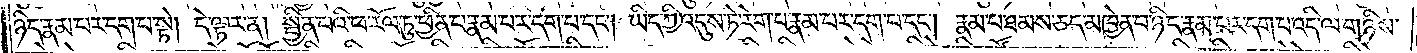ཉིད་རྣམ་པར་དག་པ་སྟེ། དེ་ལྟར་ན། སྦྱིན་པའི་ཕ་རོལ་ཏུ་ཕྱིན་པ་རྣམ་པར་དག་པ་དང༌། ཡིད་ཀྱི་འདུས་ཏེ་རེག་པ་རྣམ་པར་དག་པ་དང༌། རྣམ་པ་ཐམས་ཅད་མཁྱེན་པ་ཉིད་རྣམ་པར་དག་པ་འདི་ལ་གཉིས་
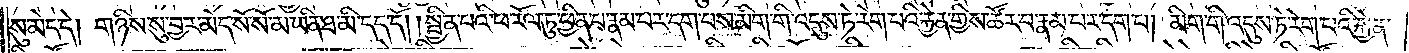སུ་མེད་དེ། གཉིས་སུ་བྱར་མེད་སོ་སོ་མ་ཡིན་ཐ་མི་དད་དོ། །སྦྱིན་པའི་ཕ་རོལ་ཏུ་ཕྱིན་པ་རྣམ་པར་དག་པས་མིག་གི་འདུས་ཏེ་རེག་པའི་རྐྱེན་གྱིས་ཚོར་བ་རྣམ་པར་དག་པ། མིག་གི་འདུས་ཏེ་རེག་པའི་རྐྱེན་
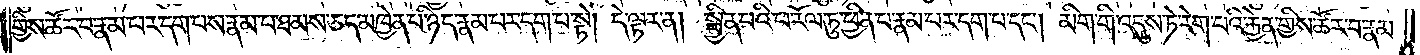གྱིས་ཚོར་བ་རྣམ་པར་དག་པས་རྣམ་པ་ཐམས་ཅད་མཁྱེན་པ་ཉིད་རྣམ་པར་དག་པ་སྟེ། དེ་ལྟར་ན། སྦྱིན་པའི་ཕ་རོལ་ཏུ་ཕྱིན་པ་རྣམ་པར་དག་པ་དང༌། མིག་འདུས་ཏེ་རེག་པའི་རྐྱེན་གྱིས་ཚོར་བ་རྣམ་
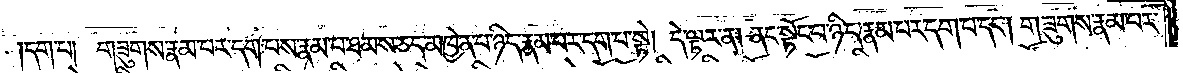དག་པ། གཟུགས་རྣམ་པར་དག་པས་རྣམ་པ་ཐམས་ཅད་མཁྱེན་པ་ཉིད་རྣམ་པར་དག་པ་སྟེ། དེ་ལྟར་ན། ནང་སྟོང་པ་ཉིད་རྣམ་པར་དག་པ་དང༌། གཟུགས་རྣམ་པར་
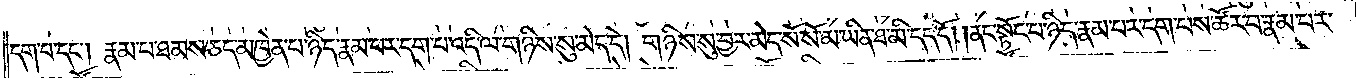དག་པ་དང༌། རྣམ་པ་ཐམས་ཅད་མཁྱེན་པ་ཉིད་རྣམ་པར་དག་པ་འདི་ལ་གཉིས་སུ་མེད་དེ། གཉིས་སུ་བྱར་མེད་སོ་སོ་མ་ཡིན་ཐ་མི་དད་དོ། །ནང་སྟོང་པ་ཉིད་རྣམ་པར་དག་པས་ཚོར་བ་རྣམ་པར་
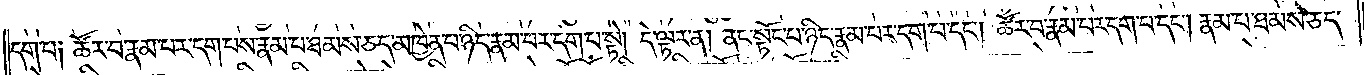དག་པ༑ ཚོར་བ་རྣམ་པར་དག་པས་རྣམ་པ་ཐམས་ཅད་མཁྱེན་པ་ཉིད་རྣམ་པར་དག་པ་སྟེ། དེ་ལྟར་ན། ནང་སྟོང་པ་ཉིད་རྣམ་པར་དག་པ་དང༌། ཚོར་བ་རྣམ་པར་དག་པ་དང༌། རྣམ་པ་ཐམས་ཅད་
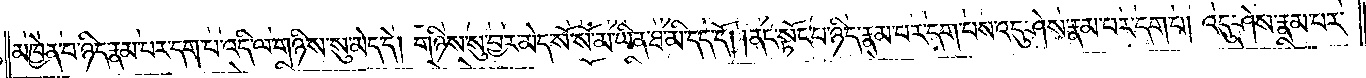མཁྱེན་པ་ཉིད་རྣམ་པར་དག་པ་འདི་ལ་གཉིས་སུ་མེད་དེ། གཉིས་སུ་བྱར་མེད་སོ་སོ་མ་ཡིན་ཐ་མི་དད་དོ། །ནང་སྟོང་པ་ཉིད་རྣམ་པར་དག་པས་འདུ་ཤེས་རྣམ་པར་དག་པ། འདུ་ཤེས་རྣམ་པར་
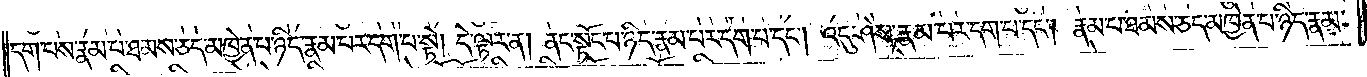དག་པས་རྣམ་པ་ཐམས་ཅད་མཁྱེན་པ་ཉིད་རྣམ་པར་དག་པ་སྟེ། དེ་ལྟར་ན། ནང་སྟོང་པ་ཉིད་རྣམ་པར་དག་པ་དང༌། འདུ་ཤེས་རྣམ་པར་དག་པ་དང༌། རྣམ་པ་ཐམས་ཅད་མཁྱེན་པ་ཉིད་རྣམ་
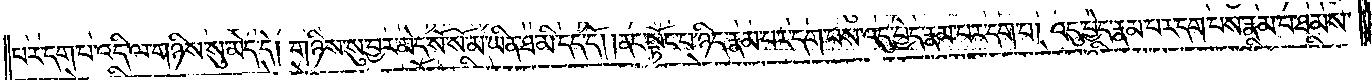པར་དག་པ་འདི་ལ་གཉིས་སུ་མེད་དེ། གཉིས་སུ་བྱར་མེད་སོ་སོ་མ་ཡིན་ཐ་མི་དད་དོ། །ནང་སྟོང་པ་ཉིད་རྣམ་པར་དག་པས་འདུ་བྱེད་རྣམ་པར་དག་པ། འདུ་བྱེད་རྣམ་པར་དག་པས་རྣམ་པ་ཐམས་
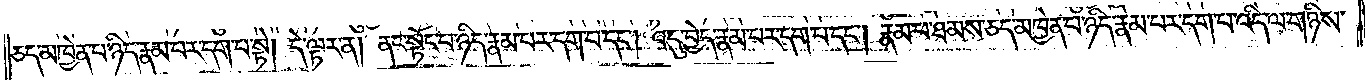ཅད་མཁྱེན་པ་ཉིད་རྣམ་པར་དག་པ་སྟེ། དེ་ལྟར་ན། ནང་སྟོང་པ་ཉིད་རྣམ་པར་དག་པ་དང༌། འདུ་བྱེད་རྣམ་པར་དག་པ་དང༌། རྣམ་པ་ཐམས་ཅད་མཁྱེན་པ་ཉིད་རྣམ་པར་དག་པ་འདི་ལ་གཉིས་
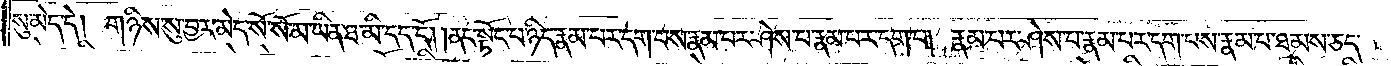སུ་མེད་དེ། གཉིས་སུ་བྱར་མེད་སོ་སོ་མ་ཡིན་ཐ་མི་དད་དོ། །ནང་སྟོང་པ་ཉིད་རྣམ་པར་དག་པས་རྣམ་པར་ཤེས་པ་རྣམ་པར་དག་པ། རྣམ་པར་ཤེས་པ་རྣམ་པར་དག་པས་རྣམ་པ་ཐམས་ཅད་
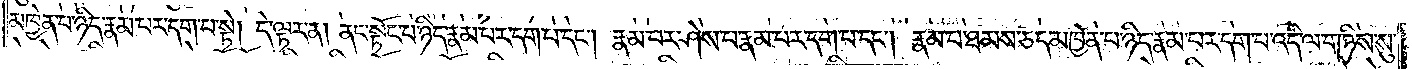མཁྱེན་པ་ཉིད་རྣམ་པར་དག་པ་སྟེ། དེ་ལྟར་ན། ནང་སྟོང་པ་ཉིད་རྣམ་པར་དག་པ་དང༌། རྣམ་པར་ཤེས་པ་རྣམ་པར་དག་པ་དང༌། རྣམ་པ་ཐམས་ཅད་མཁྱེན་པ་ཉིད་རྣམ་པར་དག་པ་འདི་ལ་གཉིས་སུ་
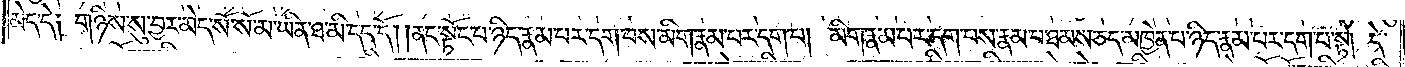མེད་དེ༑ གཉིས་སུ་བྱར་མེད་སོ་སོ་མ་ཡིན་ཐ་མི་དད་དོ། །ནང་སྟོང་པ་ཉིད་རྣམ་པར་དག་པས་མིག་རྣམ་པར་དག་པ། མིག་རྣམ་པར་དག་པས་རྣམ་པ་ཐམས་ཅད་མཁྱེན་པ་ཉིད་རྣམ་པར་དག་པ་སྟེ། དེ་
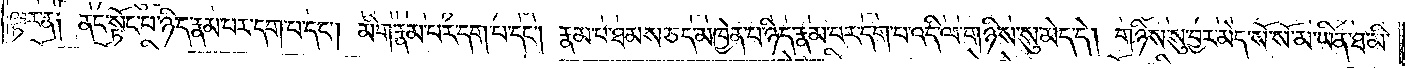ལྟར་ན༑ ནང་སྟོང་པ་ཉིད་རྣམ་པར་དག་པ་དང༌། མིག་རྣམ་པར་དག་པ་དང༌། རྣམ་པ་ཐམས་ཅད་མཁྱེན་པ་ཉིད་རྣམ་པར་དག་པ་འདི་ལ་གཉིས་སུ་མེད་དེ། གཉིས་སུ་བྱར་མེད་སོ་སོ་མ་ཡིན་ཐ་མི་
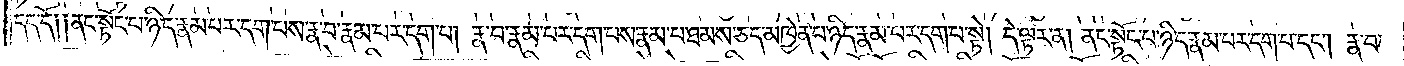དད་དོ༑ ༑ནང་སྟོང་པ་ཉིད་རྣམ་པར་དག་པས་རྣ་བ་རྣམ་པར་དག་པ། རྣ་བ་རྣམ་པར་དག་པས་རྣམ་པ་ཐམས་ཅད་མཁྱེན་པ་ཉིད་རྣམ་པར་དག་པ་སྟེ། དེ་ལྟར་ན། ནང་སྟོང་པ་ཉིད་རྣམ་པར་དག་པ་དང༌། རྣ་བ་
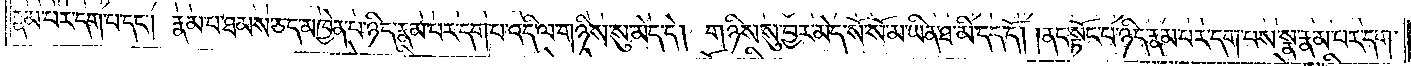རྣམ་པར་དག་པ་དང༌། རྣམ་པ་ཐམས་ཅད་མཁྱེན་པ་ཉིད་རྣམ་པར་དག་པ་འདི་ལ་གཉིས་སུ་མེད་དེ། གཉིས་སུ་བྱར་མེད་སོ་སོ་མ་ཡིན་ཐ་མི་དད་དོ། །ནང་སྟོང་པ་ཉིད་རྣམ་པར་དག་པས་སྣ་རྣམ་པར་དག་
